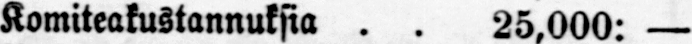Komiteakustannuksia 25,000: —
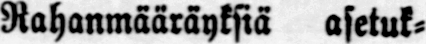Rahanmääräyksiä asetuk-
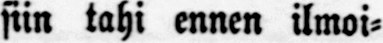siin tahi ennen ilmoi-
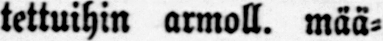tettuihin armoll. mää-
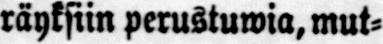räyksiin perustuwia, mut-
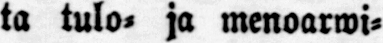ta tulo- ja menoarwi-
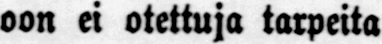oon ei otettuja tarpeita
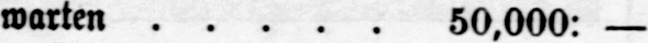warten 50,000: —
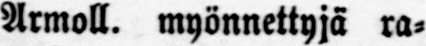Armoll. myönnettyjä ra-
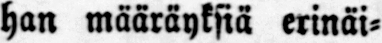han määräyksiä erinäi-
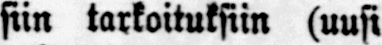siin tarkoituksiin (uusi
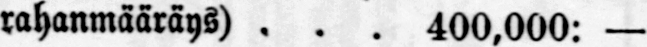rahanmääräys) 400,000: —
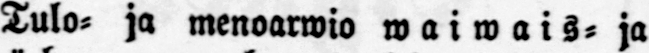Tulo- ja menoarwio waiwais- ja
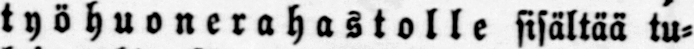työhuonerahastolle sisältää tu-
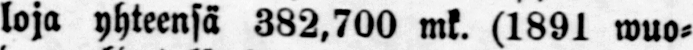loja yhteensä 382,700 mk. (1891 wuo-
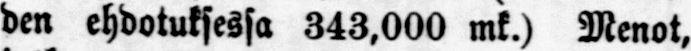den ehdotuksessa 343,000 mk.) Menot,
